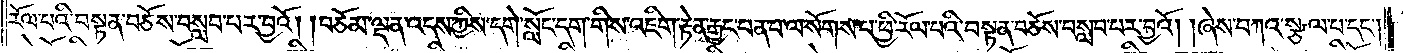རོལ་པའི་བསྟན་བཅོས་བསླབ་པར་བྱའོ། །བཅོམ་ལྡན་འདས་ཀྱིས་དགེ་སློང་དག་གིས་འཇིག་རྟེན་རྒྱང་ཕན་པ་ལ་སོགས་པ་ཕྱི་རོལ་པའི་བསྟན་བཅོས་བསླབ་པར་བྱའོ། །ཞེས་བཀའ་སྩལ་པ་དང༌།
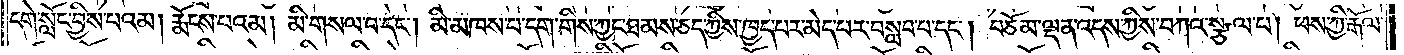དགེ་སློང་བྱིས་པའམ། རྨོངས་པའམ། མི་གསལ་བ་དང༌། མི་མཁས་པ་དག་གིས་ཀྱང་ཐམས་ཅད་ཀྱིས་ཁྱད་པར་མེད་པར་བསླབ་པ་དང༌། བཅོམ་ལྡན་འདས་ཀྱིས་བཀའ་སྩལ་པ། ཕས་ཀྱི་རྒོལ་
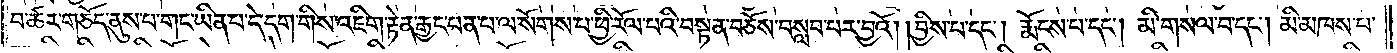བ་ཚར་གཅོད་ནུས་པ་གང་ཡིན་པ་དེ་དག་གིས་འཇིག་རྟེན་རྒྱང་ཕན་པ་ལ་སོགས་པ་ཕྱི་རོལ་པའི་བསྟན་བཅོས་བསླབ་པར་བྱའོ། །བྱིས་པ་དང༌། རྨོངས་པ་དང༌། མི་གསལ་བ་དང༌། མི་མཁས་པ་
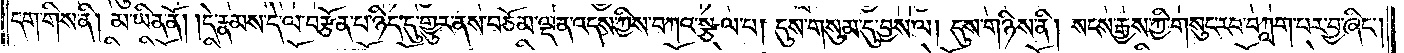དག་གིས་ནི། མ་ཡིན་ནོ། །དེ་རྣམས་དེ་ལ་བརྩོན་པ་ཉིད་དུ་གྱུར་ནས་བཅོམ་ལྡན་འདས་ཀྱིས་བཀའ་སྩལ་པ། དུས་གསུམ་དུ་བྱས་ལ། དུས་གཉིས་ནི། སངས་རྒྱས་ཀྱི་གསུང་རབ་བཀླག་པར་བྱ་ཞིང་
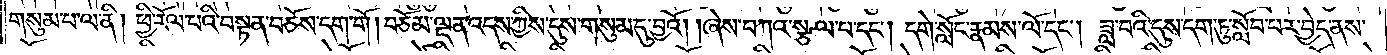གསུམ་པ་ལ་ནི། ཕྱི་རོལ་པའི་བསྟན་བཅོས་དག་གོ ། བཅོམ་ལྡན་འདས་ཀྱིས་དུས་གསུམ་དུ་བྱའོ། །ཞེས་བཀའ་སྩལ་པ་དང༌། དགེ་སློང་རྣམས་ལོ་དང༌། ཟླ་བའི་དུས་དག་ཏུ་སློབ་པར་བྱེད་ནས་
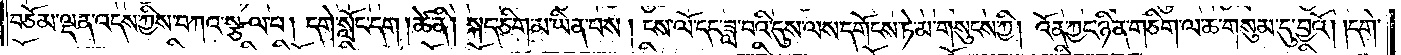བཅོམ་ལྡན་འདས་ཀྱིས་བཀའ་སྩལ་པ། དགེ་སློང་དག །ཚེ་ནི། སྐད་ཅིག་མ་ཡིན་པས། ངས་ལོ་དང་ཟླ་བའི་དུས་ལས་དགོངས་ཏེ་མ་གསུངས་ཀྱི། འོན་ཀྱང་ཉིན་གཅིག་ལ་ཆ་གསུམ་དུ་བྱའོ། །དགེ་
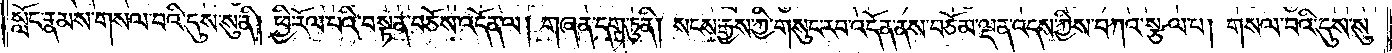སློང་རྣམས་གསལ་བའི་དུས་སུ་ནི། ཕྱི་རོལ་པའི་བསྟན་བཅོས་འདོན་ལ། གཞན་དག་ཏུ་ནི། སངས་རྒྱས་ཀྱི་གསུང་རབ་འདོན་ནས་བཅོམ་ལྡན་འདས་ཀྱིས་བཀའ་སྩལ་པ། གསལ་བའི་དུས་སུ་
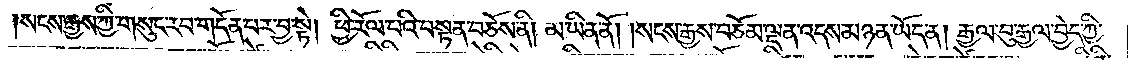སངས་རྒྱས་ཀྱི་གསུང་རབ་གདོན་པར་བྱ་སྟེ། ཕྱི་རོལ་པའི་བསྟན་བཅོས་ནི། མ་ཡིན་ནོ། །སངས་རྒྱས་བཅོམ་ལྡན་འདས་མཉན་ཡོད་ན། རྒྱལ་བུ་རྒྱལ་བྱེད་ཀྱི་
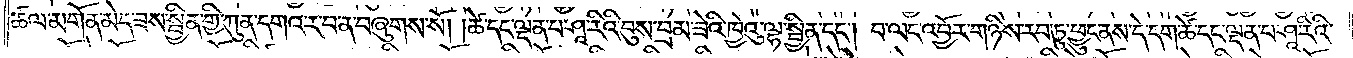ཚལ་མགོན་མེད་ཟས་སྦྱིན་གྱི་ཀུན་དགའ་ར་བ་ན་བཞུགས་སོ། །ཚེ་དང་ལྡན་པ་ཤཱ་རིའི་བུས་བྲམ་ཟེའི་ཁྱེའུ་ལྷ་སྦྱིན་དང༌། བ་ལང་འབྱོར་གཉིས་རབ་ཏུ་ཕྱུང་ནས་དེ་དག་ཚེ་དང་ལྡན་པ་ཤཱ་རིའི་
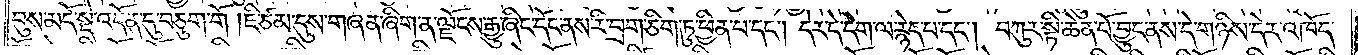བུས་མདོ་སྡེ་འདོན་དུ་བཅུག་གོ །ཇི་ཙམ་དུས་གཞན་ཞིག་ན་ལྗོངས་རྒྱུ་ཞིང་དོང་ནས་རི་བྲག་ཅིག་ཏུ་ཕྱིན་པ་དང༌། དེར་དེ་དག་ལ་རྙེད་པ་དང༌། བཀུར་སྟི་ཆེན་པོ་བྱུང་ནས་དེ་གཉིས་དེར་འཁོད་
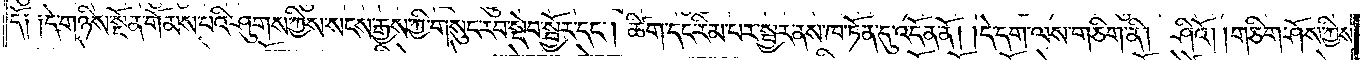དོ༑ ༑དེ་གཉིས་སྔོན་གོམས་པའི་ཤུགས་ཀྱིས་སངས་རྒྱས་ཀྱི་གསུང་རབ་སྡེབ་སྦྱོར་དང༌། ཚིག་དང་རིམ་པར་སྦྱར་ནས་ཁ་ཏོན་དུ་འདོན་ནོ། །དེ་དག་ལས་གཅིག་ནི། ཤིའོ། །གཅིག་ཤོས་ཀྱིས་
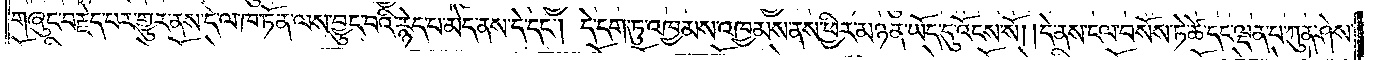གཞུང་བརྗེད་པར་གྱུར་ནས་དེ་ལ་ཁ་ཏོན་ལས་བྱུང་བའི་རྙེད་པ་མེད་ནས་དེ་དང༌། དེ་དག་ཏུ་འཁྱམས་འཁྱམས་ནས་ཕྱིར་མཉན་ཡོད་དུ་འོངས་སོ། །དེ་ནས་ངལ་བསོས་ཏེ་ཚེ་དང་ལྡན་པ་ཀུན་ཤེས་
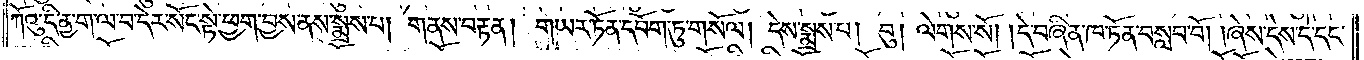ཀོའུ་དི་ནྱ་ག་ལ་བ་དེར་སོང་སྟེ་ཕྱག་བྱས་ནས་སྨྲས་པ། གནས་བརྟན། གཡར་ཏོན་དཔོག་ཏུ་གསོལ། དེས་སྨྲས་པ། བུ། ལེགས་སོ། །དེ་བཞིན་ཁ་ཏོན་བསླབ་བོ། །ཞེས་དེས་དེ་དང་
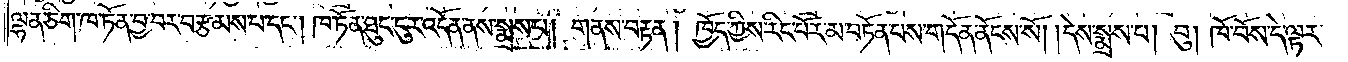ལྷན་ཅིག་ཁ་ཏོན་བྱ་བར་བརྩམས་པ་དང༌། ཁ་ཏོན་ཐུང་ངུར་འདོན་ནས་སྨྲས་པ། གནས་བརྟན། ཁྱོད་ཀྱིས་རིང་པོར་མ་བཏོན་པས་གདོན་ནོངས་སོ། །དེས་སྨྲས་པ། བུ། ཁོ་བོས་དེ་ལྟར་
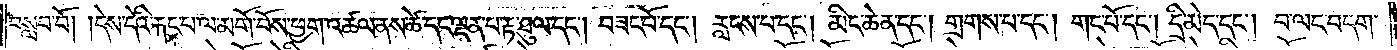བསླབ་བོ། །དེས་དེའི་རྐང་པ་ལ་མགོ་བོས་ཕྱག་འཚལ་ནས་ཚེ་དང་ལྡན་པ་རྟ་ཐུལ་དང༌། བཟང་པོ་དང༌། རླངས་པ་དང༌། མིང་ཆེན་དང༌། གྲགས་པ་དང༌། གང་པོ་དང༌། དྲི་མེད་དང༌། བ་ལང་བདག་
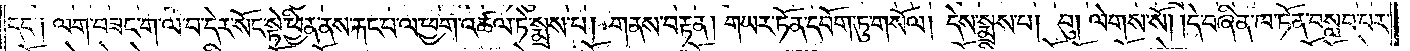དང་༑ ལག་བཟང་ག་ལ་བ་དེར་སོང་སྟེ་ཕྱིན་ནས་རྐང་པ་ལ་ཕྱག་འཚལ་ཏེ་སྨྲས་པ། གནས་བརྟན། གཡར་ཏོན་དབོག་ཏུ་གསོལ། དེས་སྨྲས་པ། བུ། ལེགས་སོ། །དེ་བཞིན་ཁ་ཏོན་བསླབ་པར་
